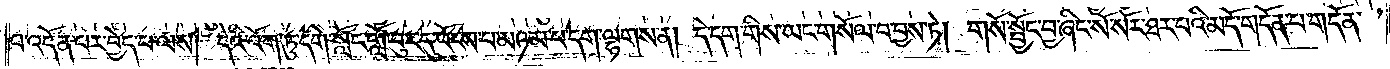པ་འདོན་པར་བྱེད་པ་ལས། དེའི་འོག་ཏུ་དགེ་སློང་གློ་བུར་དུ་འོངས་པ་མཉམ་པ་དག་ལྷགས་ན། དེ་དག་གིས་ཡང་གསོལ་བ་བྱས་ཏེ། གསོ་སྦྱོང་བྱ་ཞིང་སོ་སོར་ཐར་པའི་མདོ་གདོན་པ་གདོན་
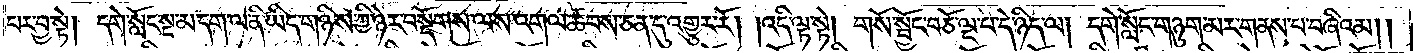པར་བྱ་སྟེ། དགེ་སློང་སྔ་མ་དག་ལ་ནི་ཡིད་གཉིས་ཀྱི་ཉེར་བསྡོགས་ལས་འགལ་ཚབས་ཅན་དུ་འགྱུར་རོ། །འདི་ལྟ་སྟེ། གསོ་སྦྱོང་བཅོ་ལྔ་པ་དེ་ཉིད་ལ། དགེ་སློང་གཉུག་མར་གནས་པ་བཞིའམ༎
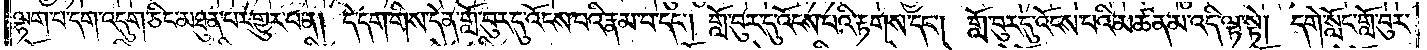ལྷག་པ་དག་འདུག་ཅིང་མཐུན་པར་གྱུར་པ་ན། དེ་དག་གིས་དེ་ན་གློ་བུར་དུ་འོངས་པའི་རྣམ་པ་དང༌། གློ་བུར་དུ་འོངས་པའི་རྟགས་དང༌། གློ་བུར་དུ་འོངས་པའི་མཚན་མ་འདི་ལྟ་སྟེ། དགེ་སློང་གློ་བུར་
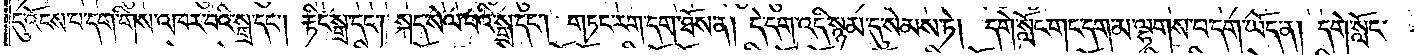དུ་འོངས་པ་དག་གིས་འཁར་པའི་སྒྲ་དང༌། རྟིང་སྒྲ་དང༌། སྐད་སེལ་བའི་སྒྲ་དང༌། གཏང་རག་དག་ཐོས་ན། དེ་དག་འདི་སྙམ་དུ་སེམས་ཏེ། དགེ་སློང་གང་དག་མ་ལྷགས་པ་དག་ཡོད་ན། དགེ་སློང་
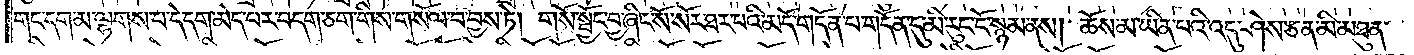གང་དག་མ་ལྷགས་པ་དེ་དག་མེད་པར་བདག་ཅག་གིས་གསོལ་བ་བྱས་ཏེ། གསོ་སྦྱོང་བྱ་ཞིང་སོ་སོར་ཐར་པའི་མདོ་གདོན་པ་གདོན་དུ་མི་རུང་ངོ་སྙམ་ནས། ཆོས་མ་ཡིན་པའི་འདུ་ཤེས་ཅན་མི་མཐུན་
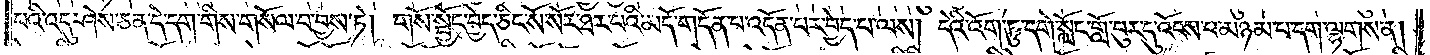པའི་འདུ་ཤེས་ཅན་དེ་དག་གིས་གསོལ་བ་བྱས་ཏེ། གསོ་སྦྱོང་བྱེད་ཅིང་སོ་སོར་ཐར་བའི་མདོ་གདོན་པ་འདོན་པར་བྱེད་པ་ལས། དེའི་འོག་ཏུ་དགེ་སློང་གློ་བུར་དུ་འོངས་པ་མཉམ་པ་དག་ལྷགས་ན།
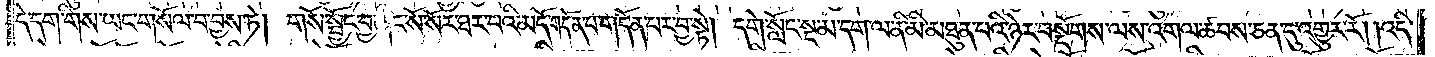དེ་དག་གིས་ཡང་གསོལ་བ་བྱས་ཏེ། གསོ་སྦྱོང་བྱ་ཞིང་སོ་སོར་ཐར་པའི་མདོ་གདོན་པ་གདོན་པར་བྱ་སྟེ། དགེ་སློང་སྔ་མ་དག་ལ་ནི་མི་མཐུན་པའི་ཉེར་བསྡོགས་ལས་འགལ་ཚབས་ཅན་དུ་འགྱུར་རོ། །འདི་
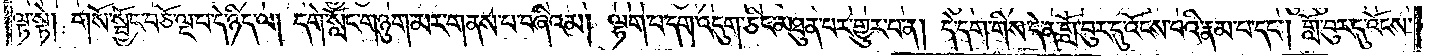ལྟ་སྟེ། གསོ་སྦྱོང་བཅོ་ལྔ་པ་དེ་ཉིད་ལ། དགེ་སློང་གཉུག་མར་གནས་པ་བཞིའམ། ལྷག་པ་དག་འདུག་ཅིང་མཐུན་པར་གྱུར་བ་ན། དེ་དག་གིས་དེ་ན་གློ་བུར་དུ་འོངས་པའི་རྣམ་པ་དང༌། གློ་བུར་དུ་འོངས་
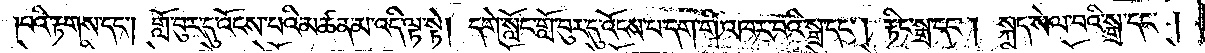པའི་རྟགས་དང༌། གློ་བུར་དུ་འོངས་པའི་མཚན་མ་འདི་ལྟ་སྟེ། དགེ་སློང་གློ་བུར་དུ་འོངས་པ་དག་གི་འཁར་བའི་སྒྲ་དང༌། རྟིང་སྒྲ་དང༌། སྐད་སེལ་བའི་སྒྲ་དང༌།
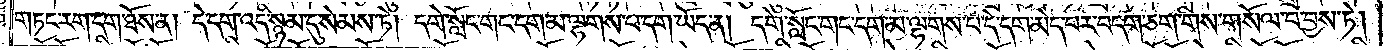གཏང་རག་དག་ཐོས་ན། དེ་དག་འདི་སྙམ་དུ་སེམས་ཏེ། དགེ་སློང་གང་དག་མ་ལྷགས་པ་དག་ཡོད་ན། དགེ་སློང་གང་དག་མ་ལྷགས་པ་དེ་དག་མེད་པར་བདག་ཅག་གིས་གསོལ་བ་བྱས་ཏེ།
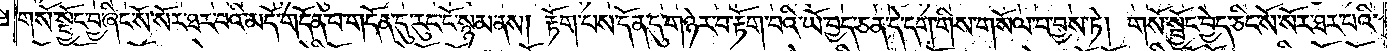གསོ་སྦྱོང་བྱ་ཞིང་སོ་སོར་ཐར་པའི་མདོ་གདོན་པ་གདོན་དུ་རུང་ངོ་སྙམ་ནས། རྟོག་པས་དོན་དུ་གཉེར་བ་རྟོག་པའི་ཡོ་བྱད་ཅན་དེ་དག་གིས་གསོལ་བ་བྱས་ཏེ། གསོ་སྦྱོང་བྱེད་ཅིང་སོ་སོར་ཐར་བའི་
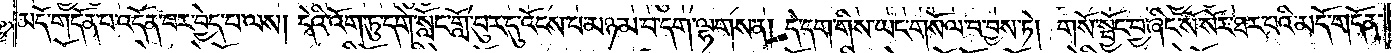མདོ་གདོན་པ་འདོན་པར་བྱེད་པ་ལས། དེའི་འོག་ཏུ་དགེ་སློང་གློ་བུར་དུ་འོངས་པ་མཉམ་པ་དག་ལྷགས་ན། དེ་དག་གིས་ཡང་གསོལ་བ་བྱས་ཏེ། གསོ་སྦྱོང་བྱ་ཞིང་སོ་སོར་ཐར་པའི་མདོ་གདོན་
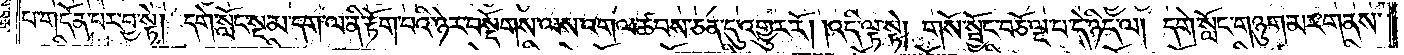པ་གདོན་པར་བྱ་སྟེ། དགེ་སློང་སྔ་མ་དག་ལ་ནི་རྟོག་པའི་ཉེར་བསྡོགས་ལས་འགལ་ཚབས་ཅན་དུ་འགྱུར་རོ། །འདི་ལྟ་སྟེ། གསོ་སྦྱོང་བཅོ་ལྔ་པ་དེ་ཉིད་ལ། དགེ་སློང་གཉུག་མར་གནས་
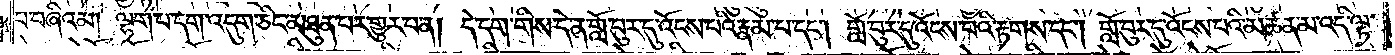པ་བཞིའམ། ལྷག་པ་དག་འདུག་ཅིང་མཐུན་པར་གྱུར་པ་ན། དེ་དག་གིས་དེ་ན་གློ་བུར་དུ་འོངས་པའི་རྣམ་པ་དང༌། གློ་བུར་དུ་འོངས་པའི་རྟགས་དང༌། གློ་བུར་དུ་འོངས་པའི་མཚན་མ་འདི་ལྟ་
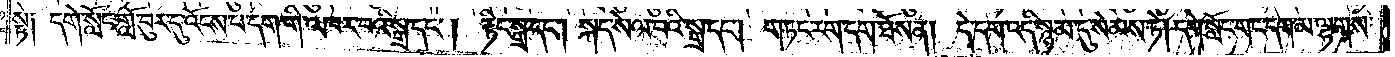སྟེ༑ དགེ་སློང་གློ་བུར་དུ་འོངས་པ་དག་གི་འཁར་བའི་སྒྲ་དང༌།   རྟིང་སྒྲ་དང༌། སྐད་སེལ་བའི་སྒྲ་དང༌། གཏང་རག་དག་ཐོས་ན། དེ་དག་འདི་སྙམ་དུ་སེམས་ཏེ། དགེ་སློང་གང་དག་མ་ལྷགས་
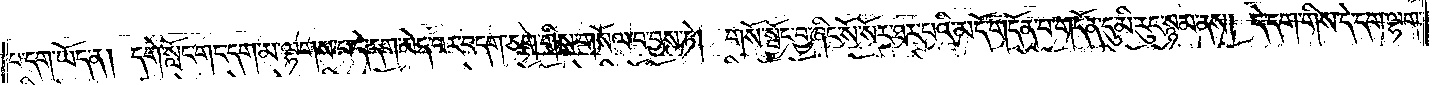པ་དག་ཡོད་ན། དགེ་སློང་གང་དག་མ་ལྷགས་པ་དེ་དག་མེད་པར་བདག་ཅག་གིས་གསོལ་བ་བྱས་ཏེ། གསོ་སྦྱོང་བྱ་ཞིང་སོ་སོར་ཐར་པའི་མདོ་གདོན་པ་གདོན་དུ་མི་རུང་སྙམ་ནས། དེ་དག་གིས་དེ་དག་ལྷག་དེ
